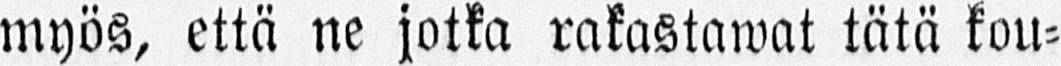myös, että ne jotka rakastawat tätä kou-
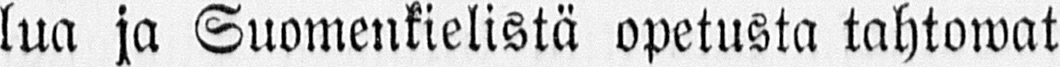lua ja Suomenkielistä opetusta tahtowat
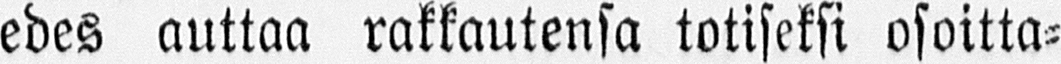edes auttaa rakkautensa totiseksi osoitta-
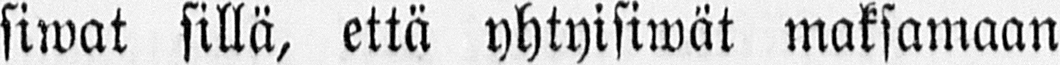siwat sillä, että yhtyisiwät maksamaan
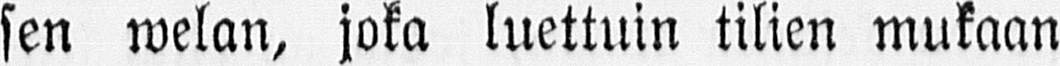sen welan, joka luettuin tilien mukaan
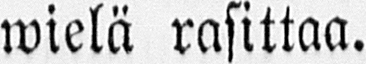wielä rasittaa.
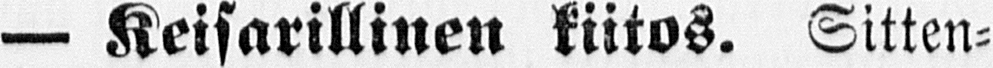— Keisarillinen kiitos. Sitten-
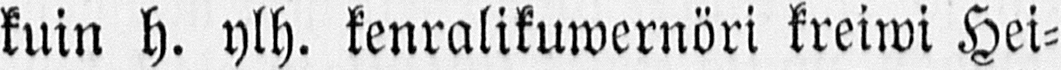kuin h. ylh. kenralikuwernöri kreiwi Hei-
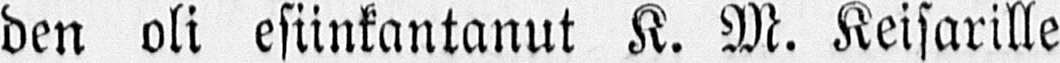den oli esiinkantanut K. M. Keisarille
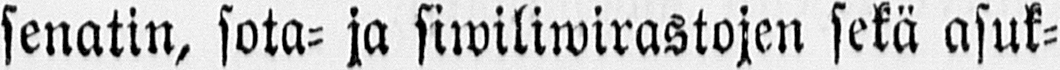senatin, sota- ja siwiliwirastojen sekä asuk-
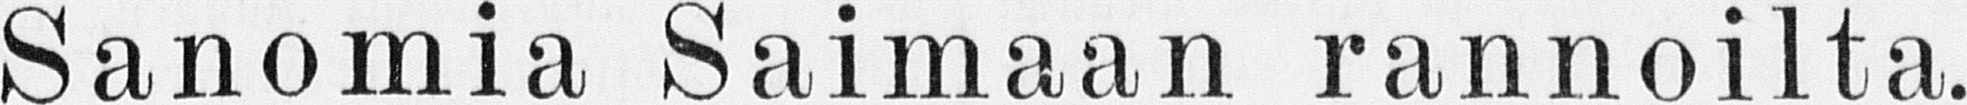Sanomia Saimaan rannoilta.
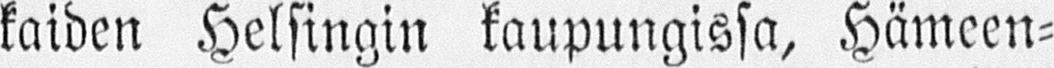kaiden Helsingin kaupungissa, Hämeen-
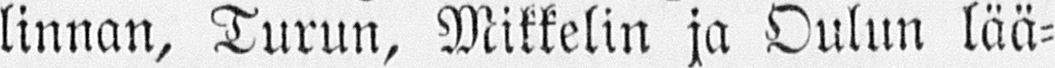linnan, Turun, Mikkelin ja Oulun lää-
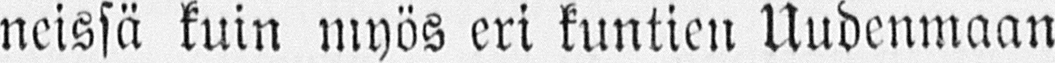neissä kuin myös eri kuntien Uudenmaan
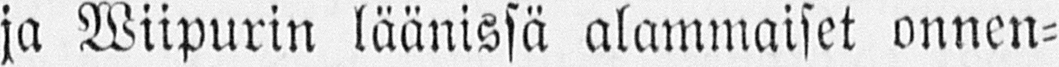ja Wiipurin läänissä alammaiset onnen-
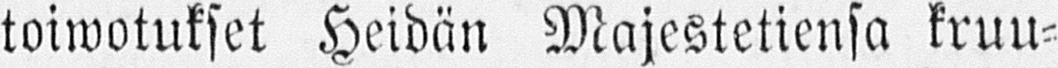toiwotukset Heidän Majestetiensa kruu-
